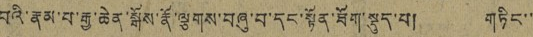བའི་རྣམ་པ་རྒྱ་ཆེན་སྒོས་རྣོ་ལྕགས་བཞུ་བ་དང་སྟོན་ཐོག་སྡུད་པ། གཏིང་་
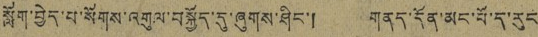སློག་བྱེད་པ་སོགས་འགུལ་བསྐྱོད་དུ་ཞུགས་ཤིང་། གནད་དོན་མང་པོ་ད་རུང
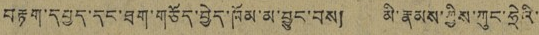བརྟག་དཔྱད་དང་ཐག་གཅོད་བྱེད་ཁོམ་མ་བྱུང་བས། མི་རྣམས་ཀྱིས་ཀུང་ཧྲེའི་
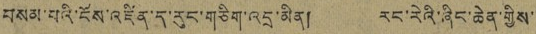བསམ་པའི་ངོས་འཛིན་ད་རུང་གཅིག་འདྲ་མིན། རང་རེའི་ཞིང་ཆེན་གྱིས་་
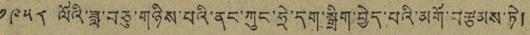༡༩༥༨ ལོའི་ཟླ་བཅུ་གཉིས་པའི་ནང་ཀུང་ཧྲེ་དག་སྒྲིག་བྱེད་པའི་མགོ་བརྩམས་ཏེ།
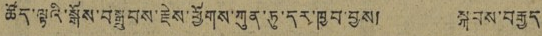ཚོད་ལྟའི་སྒོས་བསྒྲུབས་རྗེས་ཕྱོགས་ཀུན་ཏུ་དར་ཁྱབ་བྱས། སྐབས་བརྒྱད
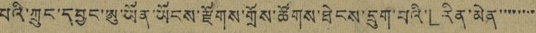པའི་ཀྲུང་དབྱང་ཨུ་ཡོན་ཡོངས་རྫོགས་གྲོས་ཚོགས་ཐེངས་དྲུག་པའི་「རིན་མེན་་་་་་་་
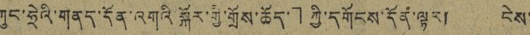ཀུང་ཧྲེའི་གནད་དོན་འགའི་སྐོར་གྱི་གྲོས་ཆོད་」ཀྱི་དགོངས་དོན་ལྟར། ངེས་
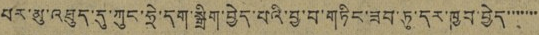པར་མུ་འཐུད་དུ་ཀུང་ཧྲེ་དག་སྒྲིག་བྱེད་པའི་བྱ་བ་གཏིང་ཟབ་ཏུ་དར་ཁྱབ་བྱེད་་་་་་་
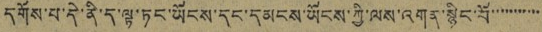དགོས་པ་དེ་ནི་ད་ལྟ་ཏང་ཡོངས་དང་དམངས་ཡོངས་ཀྱི་ལས་འགན་སྙིང་པོ་་་་་་་་་་་
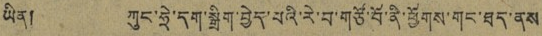ཡིན། ཀུང་ཧྲེ་དག་སྒྲིག་བྱེད་པའི་རེ་བ་གཙོ་བོ་ནི་ཕྱོགས་གང་ཐད་ནས
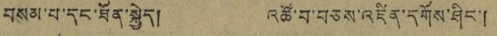བསམ་པ་དང་ཐོན་སྐྱེད། འཚོ་བ་བཅས་འཛིན་དགོས་ཤིང་།
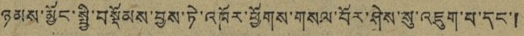ཉམས་མྱོང་སྤྱི་བསྡོམས་བྱས་ཏེ་འཁོར་ཕྱོགས་གསལ་པོར་ཤེས་སུ་འཇུག་པ་དང་།
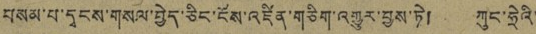བསམ་པ་དྭངས་གསལ་བྱེད་ཅིང་ངོས་འཛིན་གཅིག་འགྱུར་བྱས་ཏེ། ཀུང་ཧྲེའི་
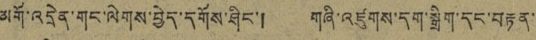མགོ་འདྲེན་གང་ལེགས་བྱེད་དགོས་ཤིང་། གཞི་འཛུགས་དག་སྒྲིག་དང་བརྟན་
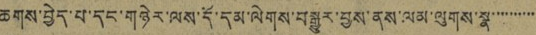ཆགས་བྱེད་པ་དང་གཉེར་ལས་དོ་དམ་ལེགས་བསྒྱུར་བྱས་ནས་ལམ་ལུགས་སྣ་་་་་་་་་་
